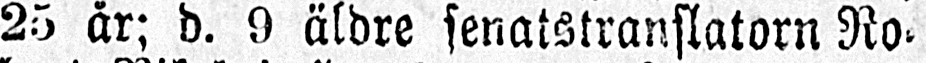25 år; d. 9 äldre senatstranslatorn Ro-
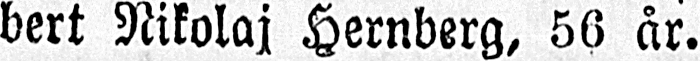bert Nikolaj Hernberg, 56 år.
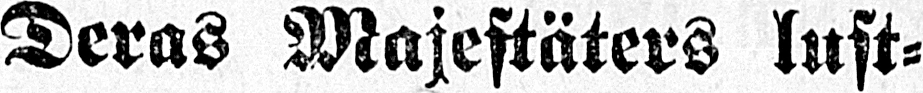Deras Majestäters lust-
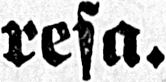resa.
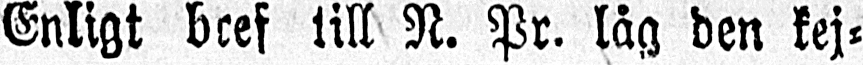Enligt bref till N. Pr. låg den kej-
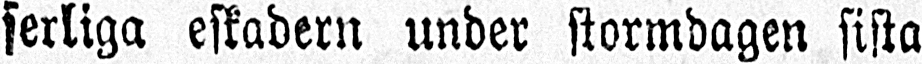serliga eskadern under stormdagen sista
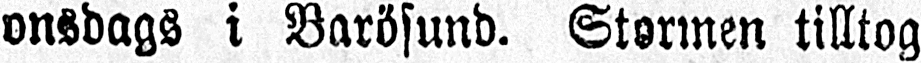onsdags i Barösund. Stormen tilltog
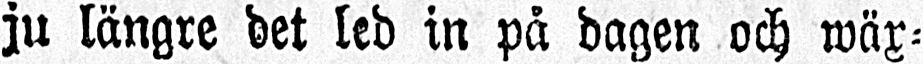ju längre det led in på dagen och wäx-
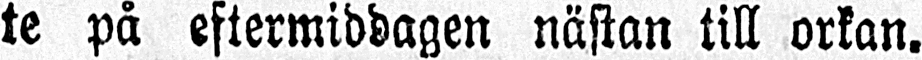te på eftermiddagen nästan till orkan.
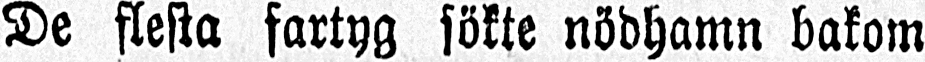De flesta fartyg sökte nödhamn bakom
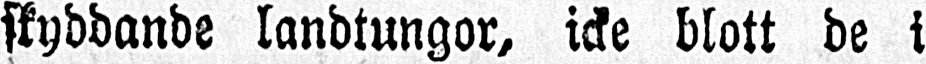skyddande landtungor, icke blott de i
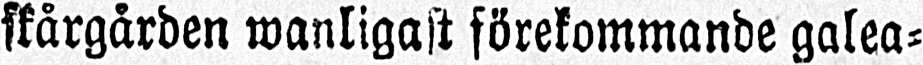skärgården wanligast förekommande galea-
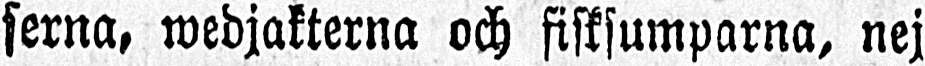serna, wedjakterna och fisksumparna, nej
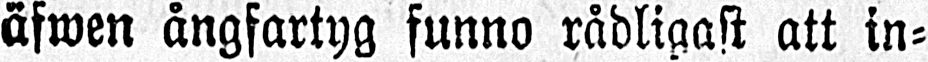äfwen ångfartyg funno rådligast att in-
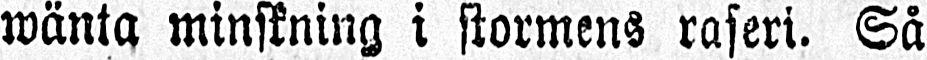wänta minskning i stormens raseri. Så
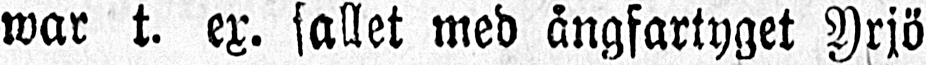war t. ex. fallet med ångfartyget Yrjö
